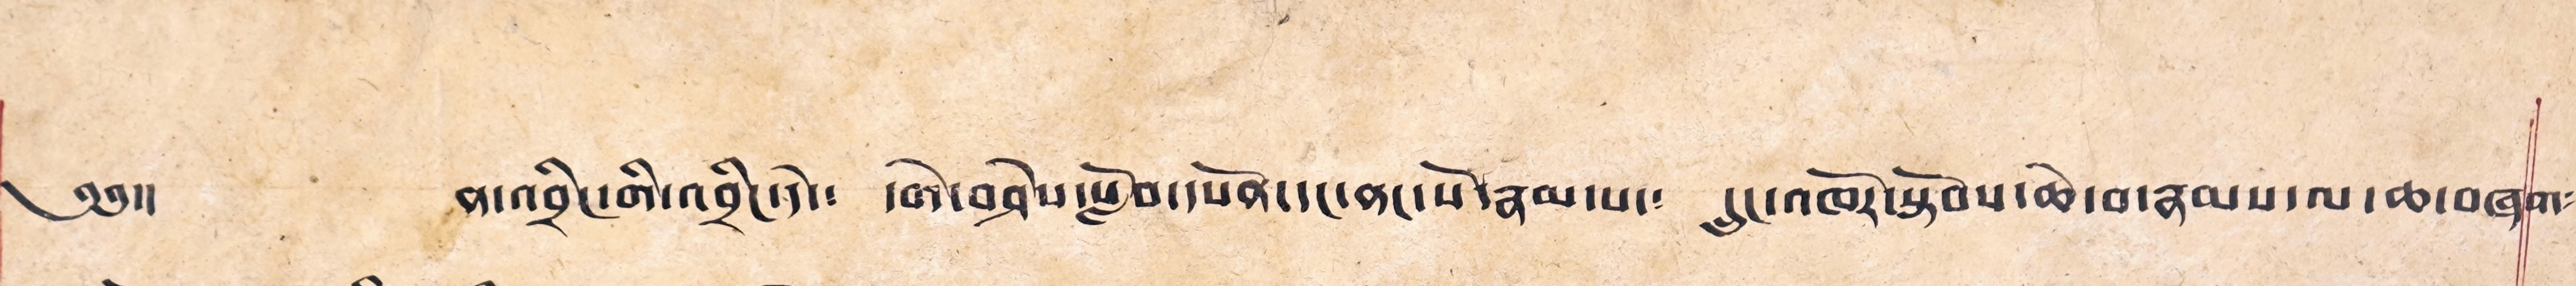༄༅།། ན་འབྲིང་གི་འབྲིང་དེ་༴ དགེ་བཤེས་སློབ་དཔོག་དང་ནང་སོ་རྣམ་པ་༴ དྲང་འཁོར་སྟོབས་ཆེ་བ་རྣམས་ལ་ཆ་བཞག༴
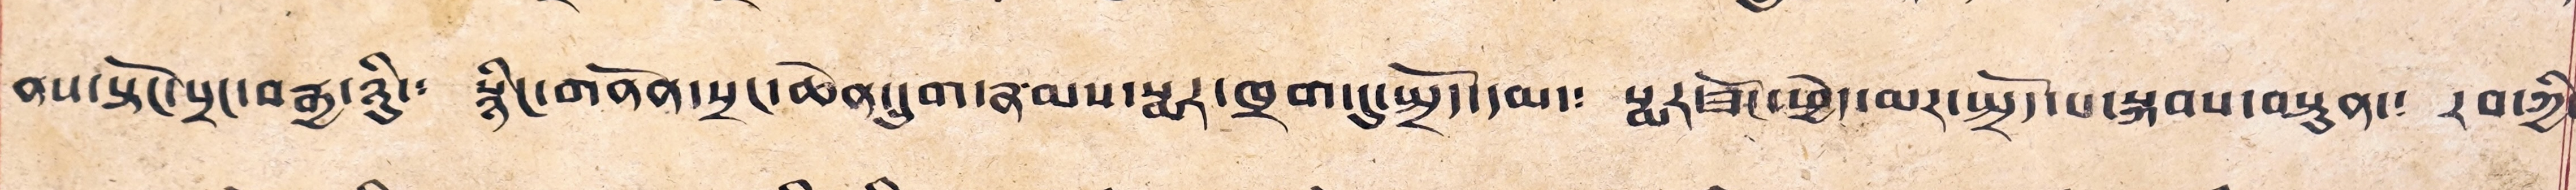ནས་སྟོང་སྲང་བརྒྱ་ཉིུ་༴ སྙིང་གནོན་སྲང་ཆེན་དྲུག་རྣམས་སྨར་ཁྲག་དུ་སྤྲོད་དམ་༴ སྨར་ཟོང་ཕྱེད་མར་སྤྲོད་པ་སྐབས་བསྟུན་༴ རབ་ཀྱི་
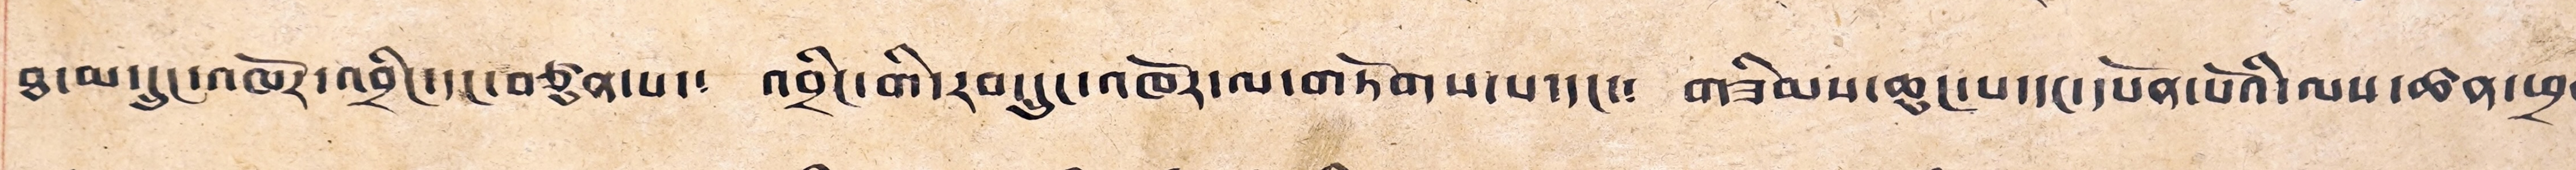ཐ་མ་དྲུང་འཁོར་འབྲིང་དང་བཙུན་པ་༴ འབྲིང་གི་རབ་དྲུང་འཁོར་ལ་གཏོགས་པ་དང་༴ གཟིམས་ཆུང་པ་དང་དཔོན་པོའི་ལས་ཚན་ཕྲན༴
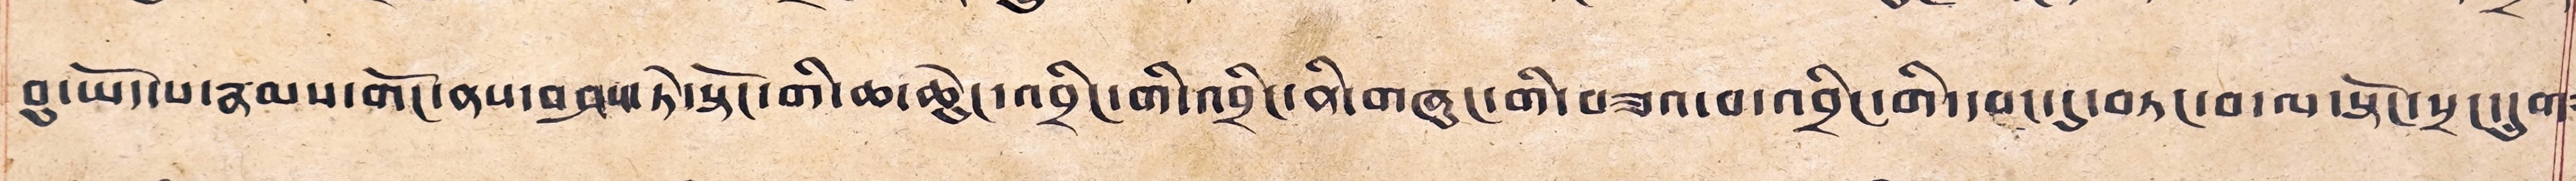བུ་ཡོད་པ་རྣམས་གོང་ནས་བཤས་ཏེ་སྟོང་གི་ཆ་ཆེུང་འབྲིང་གི་འབྲིང་ནི་གཞུང་གི་བཟའ་བ་འབྲིང་གི་དབང་དུ་བཏང་བ་ལ་སྟོང་སྲང་དྲུག༴
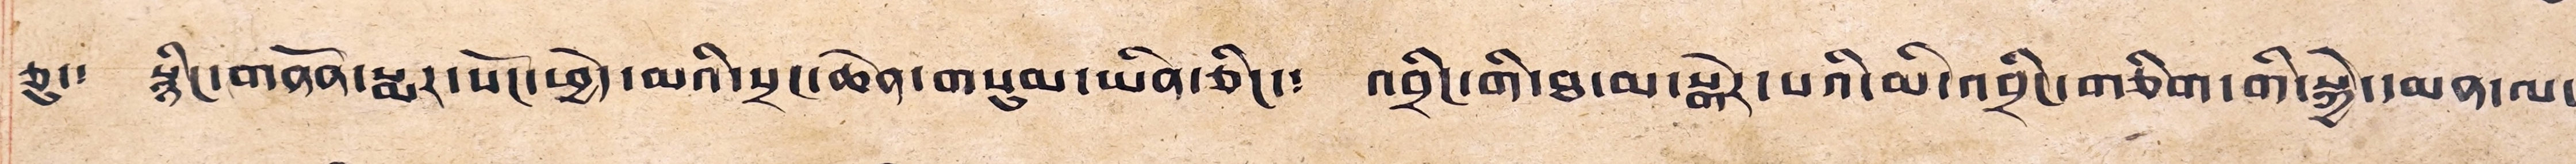ཅུ་༴ སྙིང་གནོན་སྨར་སོང་ཕྱེད་མའི་སྲང་ཆེན་གསུམ་ཡིན་ཅིང་༴ འབྲིང་གི་ཐ་མ་སྒེར་པའི་མི་འབྲིང་གཅིག་གི་སྐྱེ་དམན་ལ་
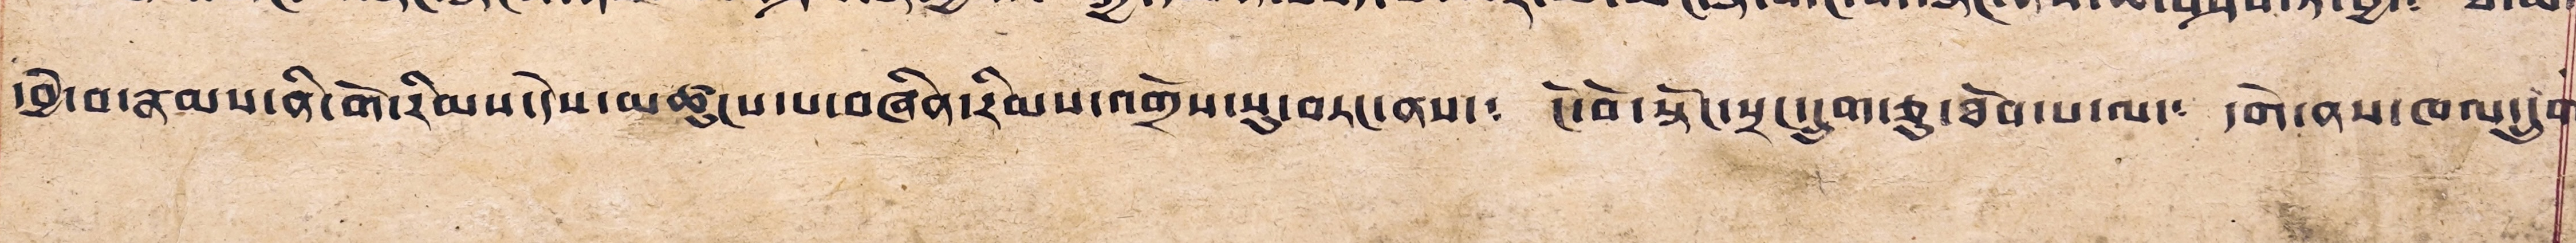དབྱེ་བ་རྣམས་ནི་གོ་རིམས་དེས་མཚུངས་པ་བཞིན་རིམས་འགྲོས་སུ་བཏང་ནས་༴ ངོ་བོ་སྟོང་སྲང་དྲུག་ཅུ་ཐོབ་པ་ལ་༴ དགེ་ནས་ཁལ་དྲུག༴
